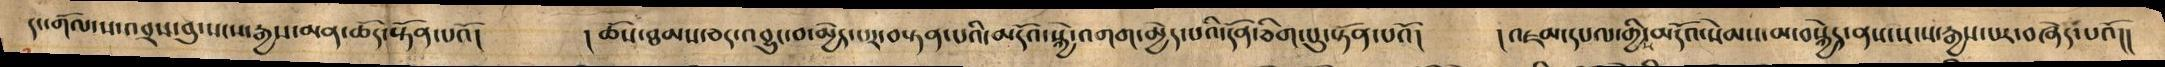དང་གོལ་ས་འབྲས་བུ་སངས་རྒྱས་མན་ཆོད་སྟོན་པའོ། །ཆོས་ཐམས་ཅད་འབྱུང་བ་མྱེད་པར་བསྟན་པའི་མདོའ་སྐྱེ་འགག་མྱེད་པའི་དོན་ཅིག་པུ་སྟོན་པའོ། །འཇམ་དཔལ་གྱི་མདོའ་སེམས་མ་བསྐྱེད་ནས་སངས་རྒྱས་པར་བཞེད་པའོ།།
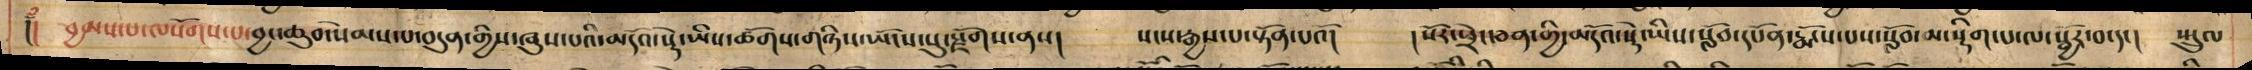།། བྱམས་པ་ལསོགས་པ་བྱང་ཆུབ་སེམས་པ་བདུན་གྱིས་ཞུས་པའི་མདོའ་སྡེ་ཡིས་ཚོགས་གཉིས་ཡོངས་སུ་སྫོགས་ནས། སངས་རྒྱས་པ་སྟོན་པའོ། །སོར་ཕྲེང་ཅན་གྱི་མདོའ་སྡེ་ཡིས་སློབ་དཔོན་རྨོངས་པས་སློབ་མ་སྡིག་པ་ལ་སྦྱོར་བ་དང། སྤྲུལ
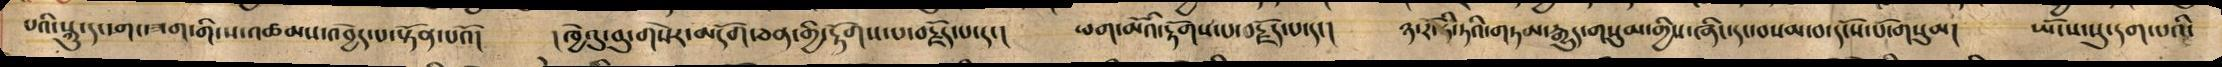པའི་སྐུ་དང་གང་ཟག་གི་ས་འཚམས་འབྱེད་པ་སྟོན་པའོ། །ཁྱེའུ་བུ་གསེར་མདོག་ཅན་གྱི་རྟོགས་པ་བརྗོད་པ་དང། ཕག་མོའི་རྟོགས་པ་བརྗོད་པ་དང། ཉ་རོ་ཏི་ཏའི་གཏམ་རྒྱུད་གསུམ་གྱིས་ཞིང་དང་བསམ་བ་དངོས་པོ་གསུམ། ཡོངས་སུ་དག་པའི་
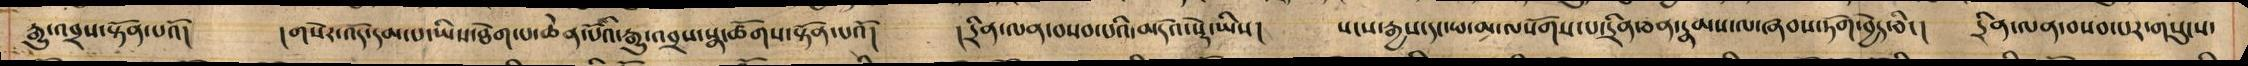རྒྱུ་འབྲས་སྟོན་པའོ། །གསེར་འོད་དམ་པ་ཡིས་ཐེག་པ་ཆེན་པོའི་རྒྱ་འབྲས་སྣ་ཚོགས་སྟོན་པའོ། །དྲིན་ལན་བསབ་པའི་མདོའ་སྡེ་ཡིས། སངས་རྒྱས་དང་ཕ་མ་ལསོགས་པ་དྲིན་ཅན་རྣམས་ལ་ཞབས་ཏོག་བྱེད་ཅིང། དྲིན་ལན་བསབ་པར་གསུངས་
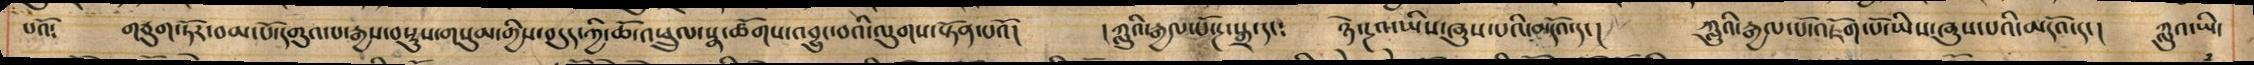པའོ: གཙུག་ཏོར་བམ་པོ་དགུའ་པ་རྒྱས་བསྡུས་གསུམ་གྱིས་བདུད་ཀྱི་ཆོ་འཕྲུལ་སྣ་ཚོགས་འབྱུང་བའི་ལུགས་སྟོན་པའོ། །ཀླུའི་རྒྱལ་པོ་རྔ་སྒྲ་དང: ཉེ་རྔའ་ཡིས་ཞུས་པའི་མདོའ་དང། ཀླུའི་རྒྱལ་པོ་འཇོག་པོ་ཡིས་ཞུས་པའི་མདོའ་དང། ཀླུའ་ཡི་
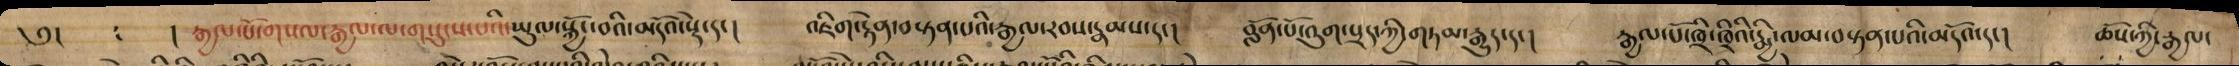༅། : ། རྒྱལ་ོི་གསལ་རྒྱལ་ལ་གསུངས་པའི་ཡུལ་སྐྱོང་བའི་མདོའ་སསྡེ་དང། འཇིག་རྟེན་བསྟན་པའི་རྒྱལ་རབས་རྣམས་དང། བློན་པོ་འུག་སྲད་ཀྱི་གཏམ་རྒྱུད་དང། རྒྱལ་པོ་ཁྲི་ཁྲིའི་རྨྱི་ལམ་བསྟན་པའི་མདོའ་དང། ཆོས་ཀྱི་རྒྱལ་
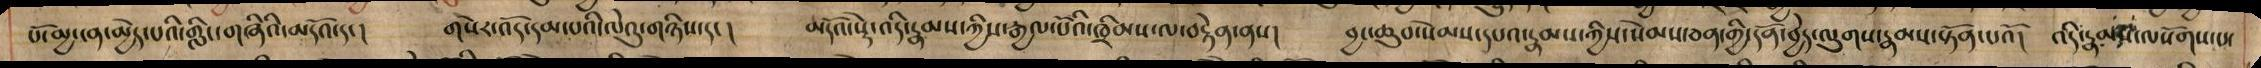པོ་མྱ་ངན་མྱེད་པའི་གླིང་གཞིའི་མདོའ་དང། གསེར་འོད་དམ་པའི་ལེའུ་གཉིས་དང། མདོའ་སྡེ་འདི་རྣམས་ཀྱིས་རྒྱལ་པོའི་ཁྲིམས་ལ་བརྟེན་ནས། བྱང་ཆུབ་སེམས་དཔའ་རྣམས་ཀྱིས་སེམས་ཅན་གྱི་དོན་བྱེད་ལུགས་རྣམས་སྟོན་པའོ། འདི་རྣམས་ལསོགས་པ་
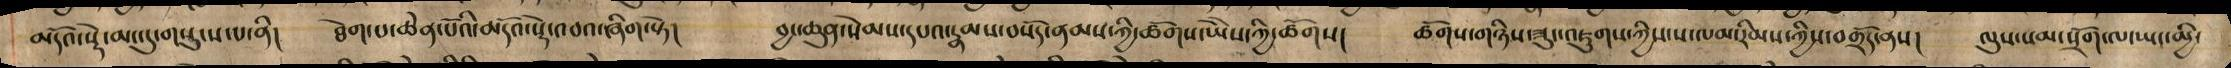མདོའ་སྡེ་མང་དི་གསུངས་པ་ནི། ཐེག་པ་ཆེན་པོའི་མདོའ་སྡེ་འབའ་ཞིག་སྟེ། བྱང་ཆུབ་སེམས་དཔའ་རྣམས་བསོད་ནམས་ཀྱི་ཚོགས་ཡེེས་ཀྱི་ཚོགས། ཚོགས་གཉིས་ཟུང་འཇུགས་ཀྱིས་ས་ལམ་རིམས་ཀྱིས་བགྲོད་ནས། ལུས་སམ་སྲོག་ལ་ཡང་མྱི་
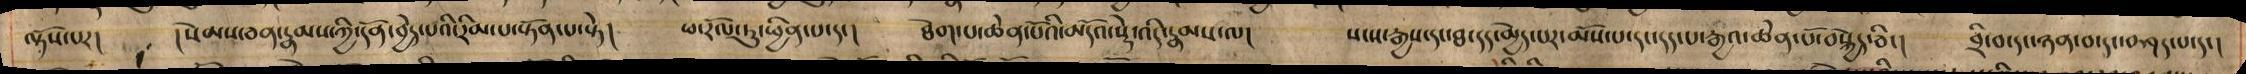ལྟོས་པར། །སེམས་ཅན་རྣམས་ཀྱི་དོན་བྱེད་པའི་རིམ་པ་སྟོན་པ་སྟེ། ཕ རོལ་ཏུ་ཕྱིན་པ་དང། ཐེག་པ་ཆེན་པོའི་མདོའ་སྡེ་འདི་རྣམས་ལ། སངས་རྒྱས་ཐ དད་མྱེད་པར་མོས་པ་དང་དད་པ་རྒྱའ་ཆེན་པོ་བསྐྱེད་ཅིང། བྲི་བ་དང་ཉན་བ་དང་བཤད་པ་དང།
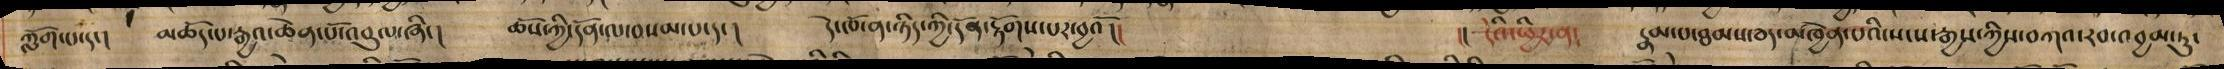ཀློག་པ་དང། མཆོད་པ་རྒྱའ་ཆེན་པོ་འབུལ་ཞིང། ཆོས་ཀྱི་དོན་ལ་བསམ་པ་དང། དེ་ཁོ་ན་ཉིད་ཀྱི་དོན་རྟོགས་པར་བྱའོ།། །། དེའི་ཕྱིར་ན། རྣམ་པ་ཐམས་ཅད་མཁྱེན་པའི་སངས་རྒྱས་ཀྱིས་བཀའ་རབ་འབྱམ་ཏུ་
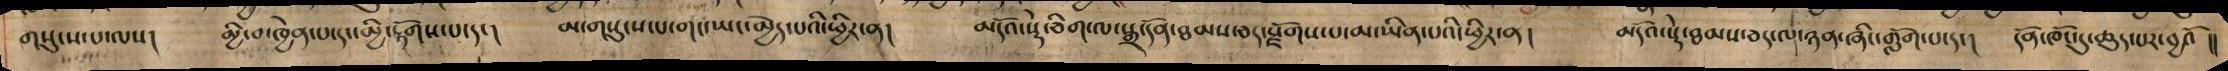གསུངས་པ་ལས། མྱི་མཁྱེན་པ་དང་མྱི་རྟོགས་པ་དང། མ་གསུངས་པ་གང་ཡང་མྱེད་པའི་ཕྱིར་ན། མདོའི་སྡེ་ཅིག་ལ་སྒྲ་དོན་ཐམས་ཅད་སྫོགས་པ་མ་ཡིན་པའི་ཕྱིར་ན། མདོའ་སྡེ་ཐམས་ཅད་ལ་ཉན་ཞིང་གློག་པ་དང། དོན་ཁོང་དུ་ཆུད་པར་བྱའོ །།
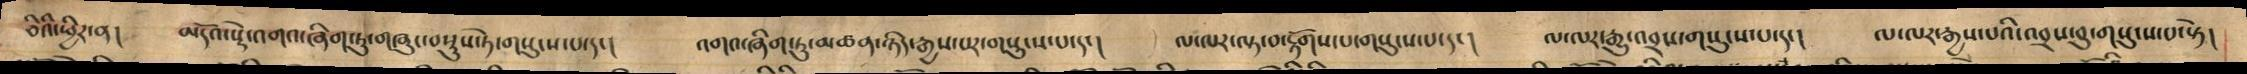ཅིའི་ཕྱིར་ན། མདོའ་སྡེ་འགའ་ཞིག་ཏུ་གཞུང་བསྡུས་ཏེ་གསུངས་པ་དང། འགའ་ཞིག་ཏུ་མཚན་ཉིད་རྒྱས་པར་གསུངས་པ་དང། ལ་ལར་ལྟ་བ་རྟོགས་པ་གསུངས་པ་དང། ལ་ལར་རྒྱུ་འབྲས་གསུངས་པ་དང། ལ་ལར་རྒྱས་པའི་འབྲས་བུ་གསུངས་པ་སྟེ།
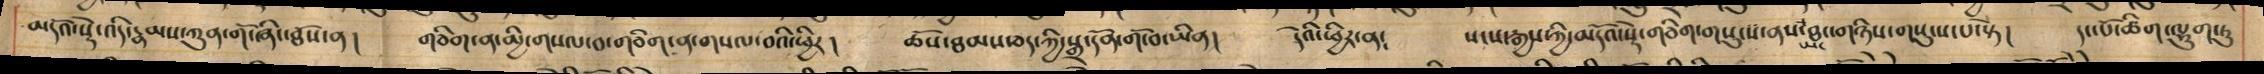མདོའ་སྡེ་འདི་རྣམས་ཀུན་གོ་ཞིང་ཐོས་ན། གཅིག་ན་མྱི་གསལ་བ་གཅིག་ན་གསལ་བའི་ཕྱིར། ཆོས་ཐམས་ཅད་ཀྱི་སྒྲ་དོན་གོ་བ་ཡིན། དེའི་ཕྱིར་ན། སངས་རྒྱས་ཀྱི་མདོའ་སྡེ་གཅིག་གསུངས་ནས་ཐང་གཉིས་གསུངས་པ་སྟེ། དང་པོ་ཚིག་ལྷུག་ཏུ
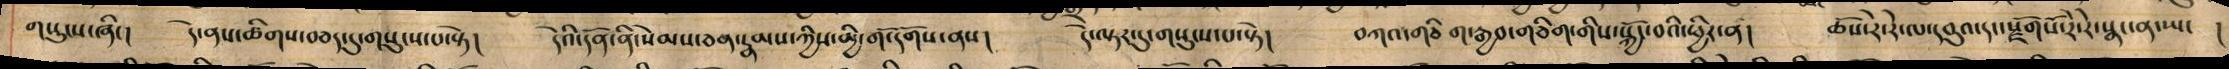གསུངས་ཞིང། དེ་ནས་ཚིགས་བཅད་དུ་གསུངས་པ་སྟེ། དེའི་དོན་ནི་སེམས་ཅན་རྣམས་ཀྱིས་མྱི་གོ་དགོས་ནས། དེ་ལྟར་དུ་གསུངས་པ་སྟེ། བཀའ་གཅིག་རྒྱབ་གཅིག་གིས་སྐྱོ་བའི་ཕྱིར་ན། ཆོས་རེ་རེ་ལ་དབུའ་དང་སྫོགསོ་རེ་ེར་སྣང་ན་ཡང །
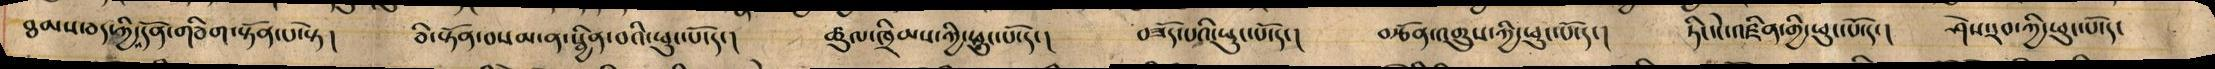ཐམས་ཅད་ཀྱི་དོན་གཅིག་སྟོན་པ་སྟེ། ཅི་སྟོན་བསམ་ན་སྦྱིན་བའི་ཕུང་པོ་དང། ཚུལ་ཁྲིམས་ཀྱི་ཕུང་པོ་དང། བཟོད་པའི་ཕུང་པོ་དང། བརྩོན་འགྲུས་ཀྱི་ཕུང་པོ་དང། ཏིང་ངེ་འཛིན་གྱི་ཕུང་པོ་དང། ཤེས་རབ་ཀྱི་ཕུང་པོ་དང
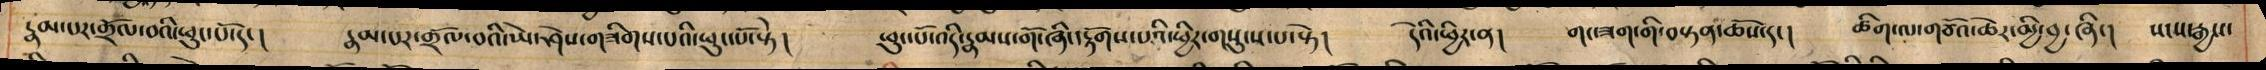རྣམ་པར་གྲོལ་བའི་ཕུང་པོ་དང། རྣམ་པར་གྲོལ་བའི་ཡེ་ཤེས་གཟིགས་པའི་ཕུང་པོ་སྟེ། ཕུང་པོ་འདི་རྣམས་གོ་ཞིང་རྟོགས་པའི་ཕྱིར་གསུངས་པ་སྟེ། དེའི་ཕྱིར་ན། གང་ཟག་གི་བསྟན་ཆོས་དང། ཚིག་ལ་གཙོའ་ཆེར་མྱི་བྱ་ཞིང། སངས་རྒྱས་
